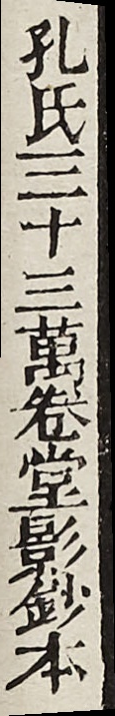孔氏三十三萬卷堂影鈔本
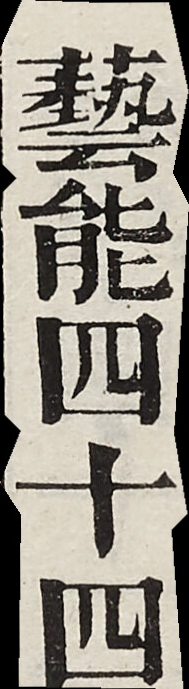藝能四十四
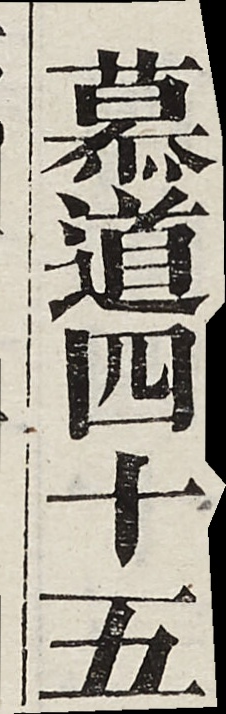慕道四十五
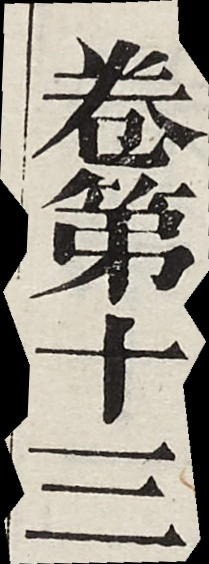卷第十三
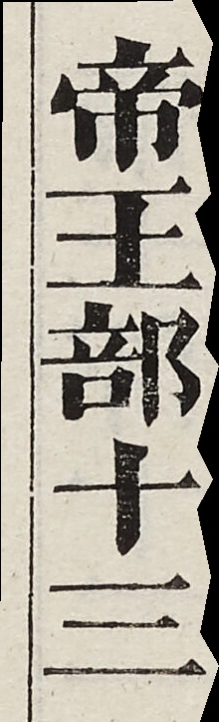帝王部十三
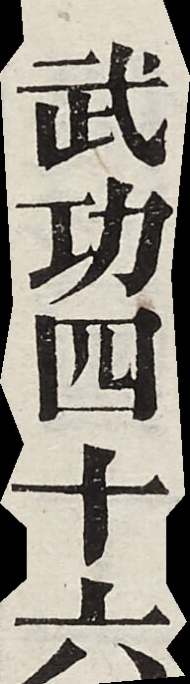武功四十六
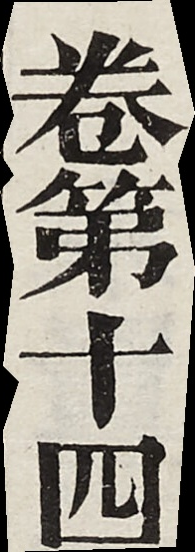卷第十四
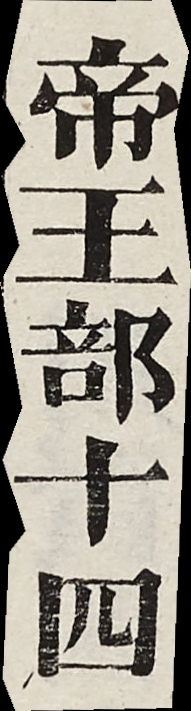帝王部十四
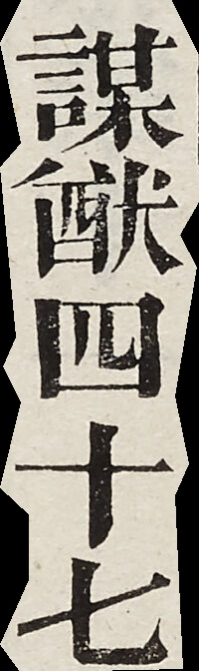謀猷四十七
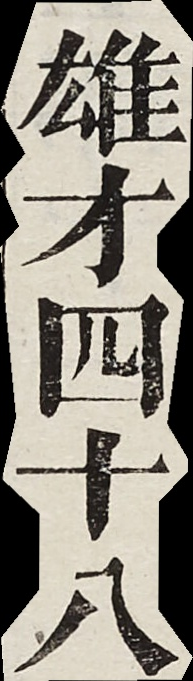雄才四十八
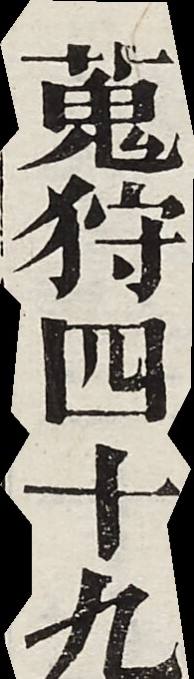蒐狩四十九
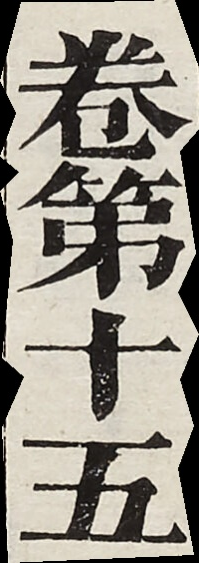卷第十五
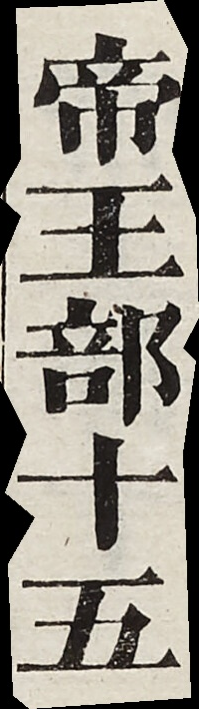帝王部十五
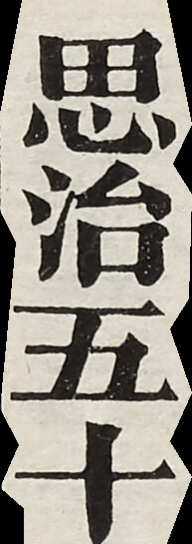思治五十
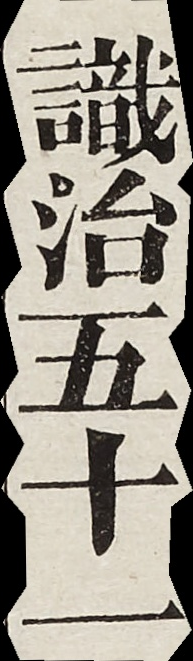識治五十一
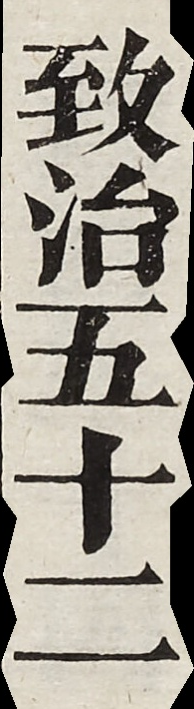致治五十二
